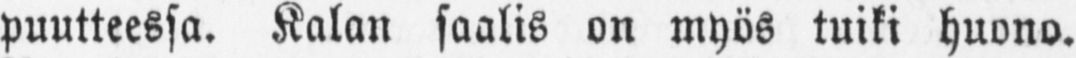puutteessa. Kalan saalis on myös tuiki huono.
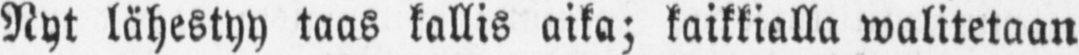Nyt lähestyy taas kallis aika; kaikkialla walitetaan
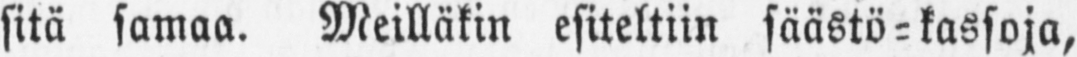sitä samaa. Meilläkin esiteltiin säästö-kassoja,
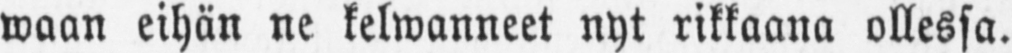waan eihän ne kelwanneet nyt rikkaana ollessa.
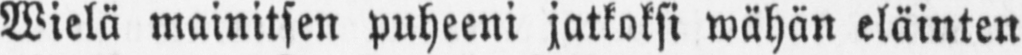Wielä mainitsen puheeni jatkoksi wähän eläinten
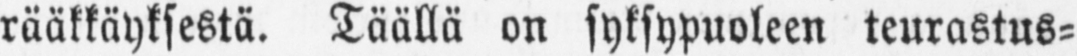rääkkäyksestä. Täällä on syksypuoleen teurastus-
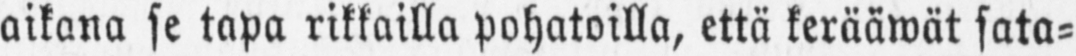aikana se tapa rikkailla pohatoilla, että kerääwät sato-
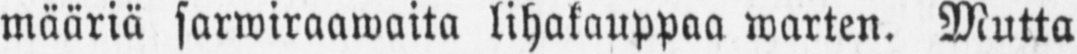määriä sarwiraawaita lihakauppaa warten. Mutta
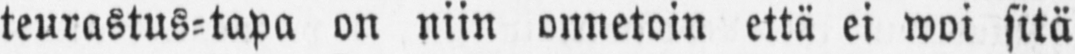teurastus-tapa on niin onnetoin että ei woi sitä
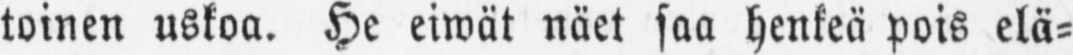toinen uskoa. He eiwät näet saa henkeä pois elä-
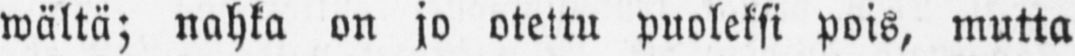wältä; nahka on jo otettu puoleksi pois, mutta
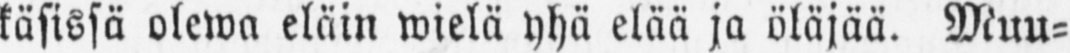käsissä olewa eläin wielä yhä elää ja öläjää. Muu-
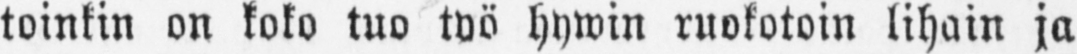toinkin on koko tuo työ hywin ruokotoin lihain ja
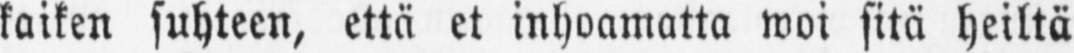kaiken suhteen, että et inhoamatta woi sitä heiltä
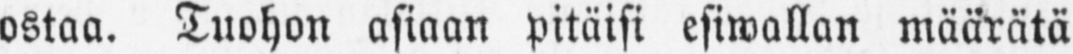ostaa. Tuohon asiaan pitäisi esiwallan määrätä
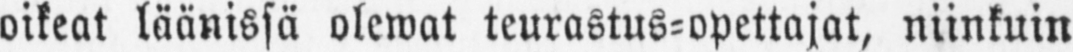oikeat läänissä olewat teurastus-opettajat, niinkuin
